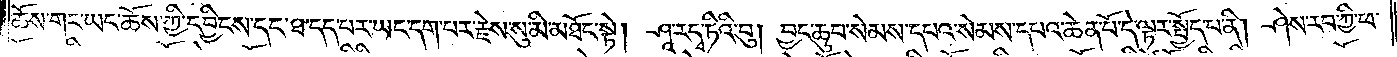ཆོས་གང་ཡང་ཆོས་ཀྱི་དབྱིངས་དང་ཐ་དད་པར་ཡང་དག་པར་རྗེས་སུ་མི་མཐོང་སྟེ། ཤཱ་དྭ་ཏིའི་བུ། བྱང་ཆུབ་སེམས་དཔའ་སེམས་དཔའ་ཆེན་པོ་དེ་ལྟར་སྤྱོད་པ་ནི། ཤེས་རབ་ཀྱི་ཕ་
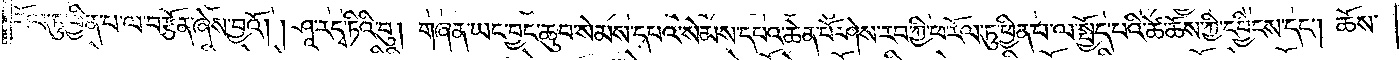རོལ་ཏུ་ཕྱིན་པ་ལ་བརྩོན་ཞེས་བྱའོ། །ཤཱ་རདྭ་ཏིའི་བུ། གཞན་ཡང་བྱང་ཆུབ་སེམས་དཔའ་སེམས་དཔའ་ཆེན་པོ་ཤེས་རབ་ཀྱི་ཕ་རོལ་ཏུ་ཕྱིན་པ་ལ་སྤྱོད་པའི་ཚེ་ཆོས་ཀྱི་དབྱིངས་དང༌། ཆོས་
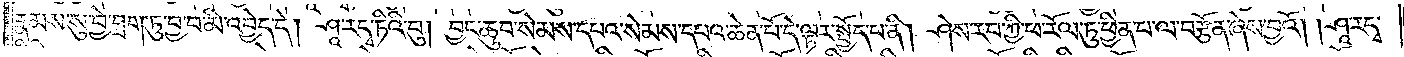རྣམས་སུ་བྱེ་བྲག་ཏུ་བྱ་བ་མི་འབྱེད་དེ། ཤཱ་རདྭ་ཏིའི་བུ། བྱང་ཆུབ་སེམས་དཔའ་སེམས་དཔའ་ཆེན་པོ་དེ་ལྟར་སྤྱོད་པ་ནི། ཤེས་རབ་ཀྱི་ཕ་རོལ་ཏུ་ཕྱིན་པ་ལ་བརྩོན་ཞེས་བྱའོ། །ཤཱ་རདྭ་
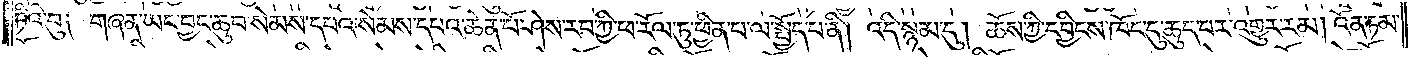ཏིའི་བུ༑ གཞན་ཡང་བྱང་ཆུབ་སེམས་དཔའ་སེམས་དཔའ་ཆེན་པོ་ཤེས་རབ་ཀྱི་ཕ་རོལ་ཏུ་ཕྱིན་པ་ལ་སྤྱོད་པ་ནི། འདི་སྙམ་དུ། ཆོས་ཀྱི་དབྱིངས་ཁོང་དུ་ཆུད་པར་འགྱུར་རམ། འོན་ཏམ་
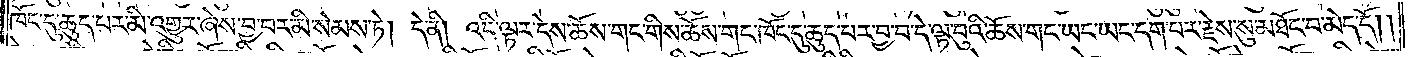ཁོང་དུ་ཆུད་པར་མི་འགྱུར་ཞེས་བྱ་བར་མི་སེམས་ཏེ། དེ་ནི། འདི་ལྟར་དེས་ཆོས་གང་གིས་ཆོས་གང་ཁོང་དུ་ཆུད་པར་བྱ་བ་དེ་ལྟ་བུའི་ཆོས་གང་ཡང་ཡང་དག་པར་རྗེས་སུ་མཐོང་བ་མེད་དོ། །
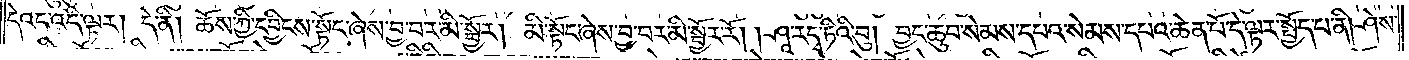དེའང་འདི་ལྟར། དེ་ནི། ཆོས་ཀྱི་དབྱིངས་སྟོང་ཞེས་བྱ་བར་མི་སྦྱོར། མི་སྟོང་ཞེས་བྱ་བར་མི་སྦྱོར་རོ། །ཤཱ་རདྭ་ཏིའི་བུ། བྱང་ཆུབ་སེམས་དཔའ་སེམས་དཔའ་ཆེན་པོ་དེ་ལྟར་སྤྱོད་པ་ནི། ཤེས་
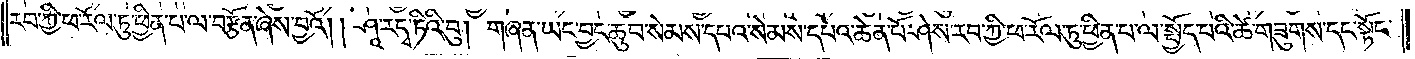རབ་ཀྱི་ཕ་རོལ་ཏུ་ཕྱིན་པ་ལ་བརྩོན་ཞེས་བྱའོ། །ཤཱ་རདྭ་ཏིའི་བུ། གཞན་ཡང་བྱང་ཆུབ་སེམས་དཔའ་སེམས་དཔའ་ཆེན་པོ་ཤེས་རབ་ཀྱི་ཕ་རོལ་ཏུ་ཕྱིན་པ་ལ་སྤྱོད་པའི་ཚེ་གཟུགས་དང་སྟོང་
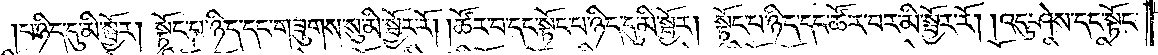པ་ཉིད་དུ་མི་སྦྱོར། སྟོང་པ་ཉིད་དང་གཟུགས་སུ་མི་སྦྱོར་རོ། །ཚོར་བ་དང་སྟོང་པ་ཉིད་དུ་མི་སྦྱོར། སྟོང་པ་ཉིད་དང་ཚོར་བར་མི་སྦྱོར་རོ། །འདུ་ཤེས་དང་སྟོང་
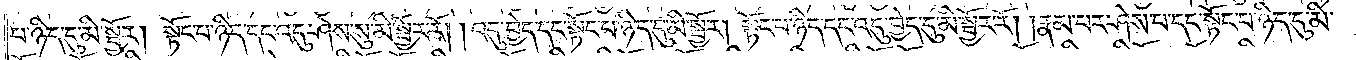པ་ཉིད་དུ་མི་སྦྱོར། སྟོང་པ་ཉིད་དང་འདུ་ཤེས་སུ་མི་སྦྱོར་རོ། །འདུ་བྱེད་དང་སྟོང་པ་ཉིད་དུ་མི་སྦྱོར། སྟོང་པ་ཉིད་དང་འདུ་བྱེད་དུ་མི་སྦྱོར་རོ། །རྣམ་པར་ཤེས་པ་དང་སྟོང་པ་ཉིད་དུ་མི་
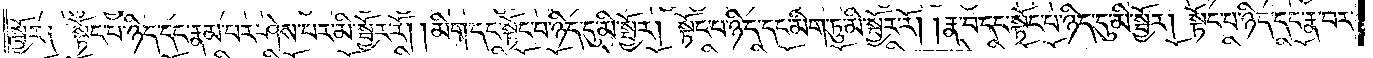སྦྱོར༑ སྟོང་པ་ཉིད་དང་རྣམ་པར་ཤེས་པར་མི་སྦྱོར་རོ། །མིག་དང་སྟོང་པ་ཉིད་དུ་མི་སྦྱོར། སྟོང་པ་ཉིད་དང་མིག་ཏུ་མི་སྦྱོར་རོ། །རྣ་བ་དང་སྟོང་པ་ཉིད་དུ་མི་སྦྱོར། སྟོང་པ་ཉིད་དང་རྣ་བར་
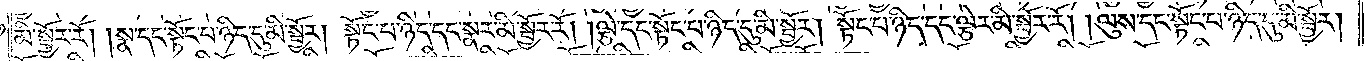མི་སྦྱོར་རོ། །སྣ་དང་སྟོང་པ་ཉིད་དུ་མི་སྦྱོར། སྟོང་པ་ཉིད་དང་སྣར་མི་སྦྱོར་རོ། །ལྕེ་དང་སྟོང་པ་ཉིད་དུ་མི་སྦྱོར། སྟོང་པ་ཉིད་དང་ལྕེར་མི་སྦྱོར་རོ། །ལུས་དང་སྟོང་པ་ཉིད་དུ་མི་སྦྱོར།
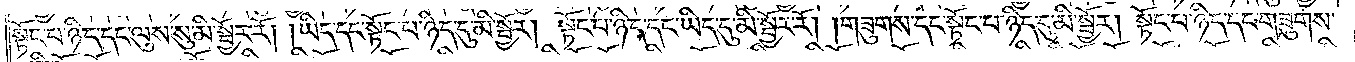སྟོང་པ་ཉིད་དང་ལུས་སུ་མི་སྦྱོར་རོ། །ཡིད་དང་སྟོང་པ་ཉིད་དུ་མི་སྦྱོར། སྟོང་པ་ཉིད་དང་ཡིད་དུ་མི་སྦྱོར་རོ། །གཟུགས་དང་སྟོང་པ་ཉིད་དུ་མི་སྦྱོར། སྟོང་པ་ཉིད་དང་གཟུགས་
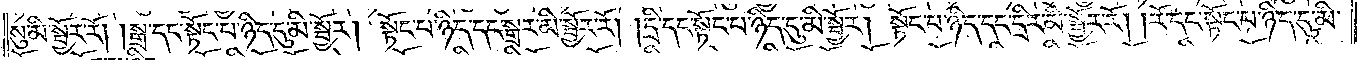སུ་མི་སྦྱོར་རོ། །སྒྲ་དང་སྟོང་པ་ཉིད་དུ་མི་སྦྱོར། སྟོང་པ་ཉིད་དང་སྒྲར་མི་སྦྱོར་རོ། །དྲི་དང་སྟོང་པ་ཉིད་དུ་མི་སྦྱོར། སྟོང་པ་ཉིད་དང་དྲིར་མི་སྦྱོར་རོ། །རོ་དང་སྟོང་པ་ཉིད་དུ་མི་
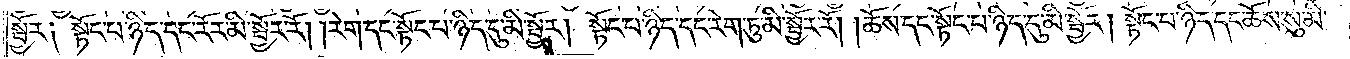སྦྱོར༑ སྟོང་པ་ཉིད་དང་རོར་མི་སྦྱོར་རོ། །རེག་དང་སྟོང་པ་ཉིད་དུ་མི་སྦྱོར། སྟོང་པ་ཉིད་དང་རེག་ཏུ་མི་སྦྱོར་རོ། །ཆོས་དང་སྟོང་པ་ཉིད་དུ་མི་སྦྱོར། སྟོང་པ་ཉིད་དང་ཆོས་སུ་མི་
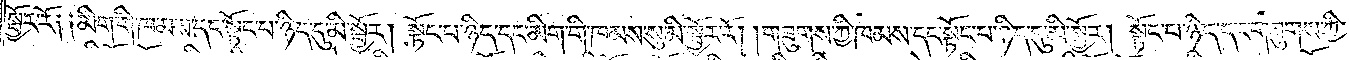སྦྱོར་རོ༑ ༑མིག་གི་ཁམས་དང་སྟོང་པ་ཉིད་དུ་མི་སྦྱོར། སྟོང་པ་ཉིད་དང་མིག་གི་ཁམས་སུ་མི་སྦྱོར་རོ། །གཟུགས་ཀྱི་ཁམས་དང་སྟོང་པ་ཉིད་དུ་མི་སྦྱོར། སྟོང་པ་ཉིད་དང་གཟུགས་ཀྱི་
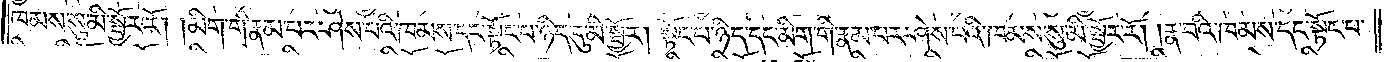ཁམས་སུ་མི་སྦྱོར་རོ། །མིག་གི་རྣམ་པར་ཤེས་པའི་ཁམས་དང་སྟོང་པ་ཉིད་དུ་མི་སྦྱོར། སྟོང་པ་ཉིད་དང་མིག་གི་རྣམ་པར་ཤེས་པའི་ཁམས་སུ་མི་སྦྱོར་རོ། །རྣ་བའི་ཁམས་དང་སྟོང་པ་
